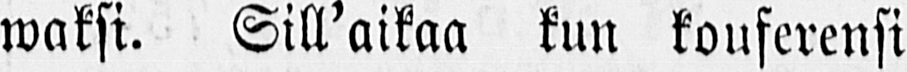waksi. Sill'aikaa kun kouferensi
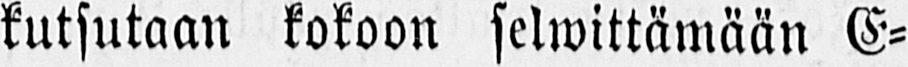kutsutaan kokoon selwittämään E-
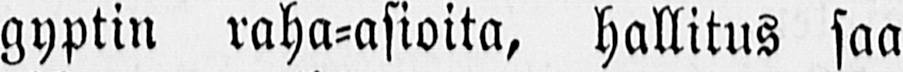gyptin raha-asioita, hallitus saa
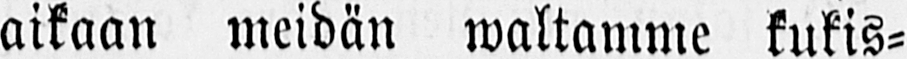aikaan meidän waltamme kukis-
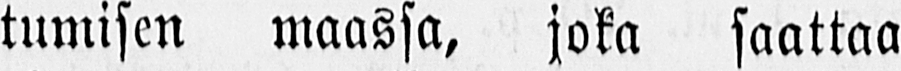tumisen maassa, joka saattaa
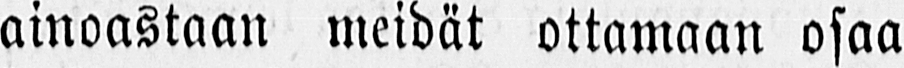ainoastaan meidät ottamaan osaa
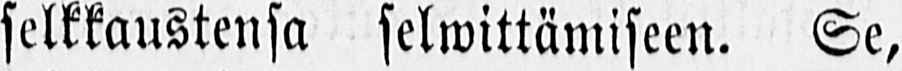selkkaustensa selwittämiseen. Se,
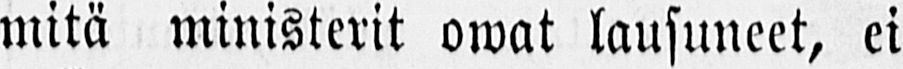mitä ministerit owat lausuneet, ei
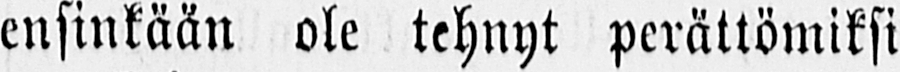ensinkään ole tehnyt perättömiksi
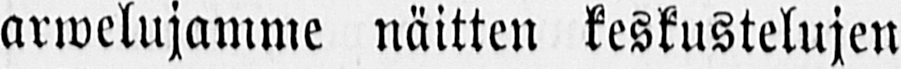arwelujamme näitten keskustelujen
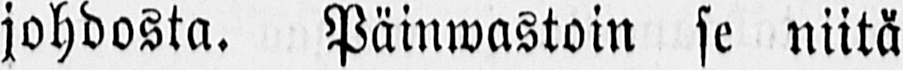johdosta. Päinwastoin se niitä
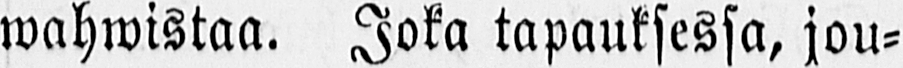wahwistaa. Joka tapauksessa, jou-
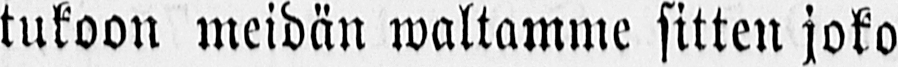tukoon meidän waltamme sitten joko
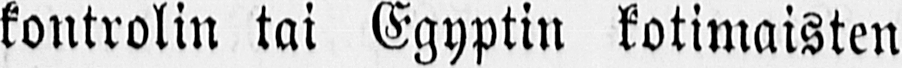kontrolin tai Egyptin kotimaisten
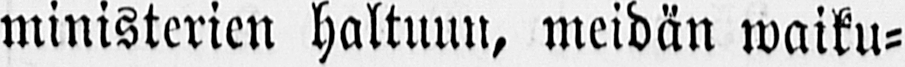ministerien haltuun, meidän waiku-
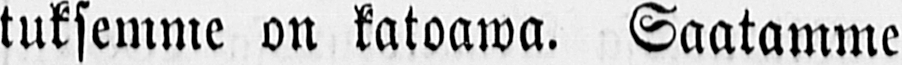tuksemme on katoawa. Saatamme
